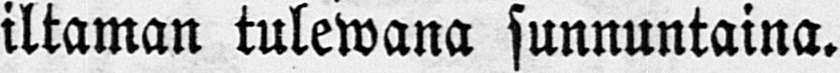iltaman tulewana sunnuntaina.
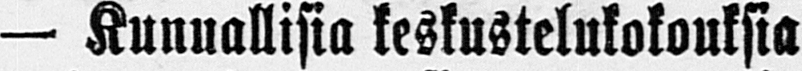— Kunnallisia keskustelukokouksia
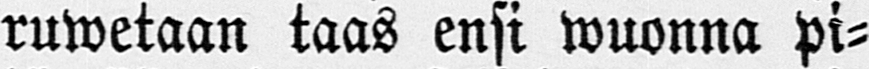ruwetaan taas ensi wuonna pi-
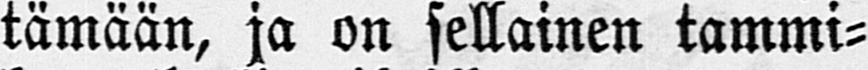tämään, ja on sellainen tammi-
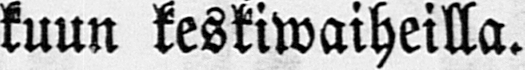kuun keskiwaiheilla.
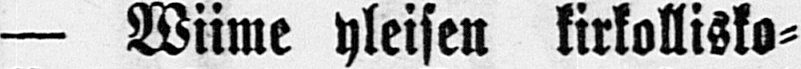— Wiime yleisen kirkollisko-
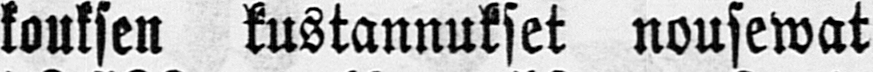kouksen kustannukset nousewat
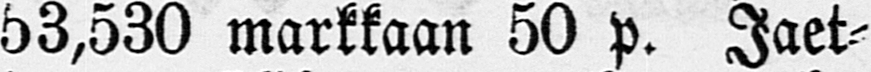53,530 markkaan 50 p. Jaet-
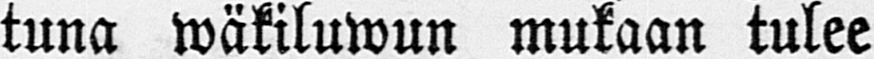tuna wäkiluwun mukaan tulee
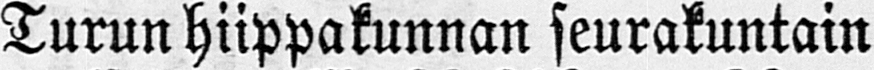Turun hiippakunnan seurakuntain
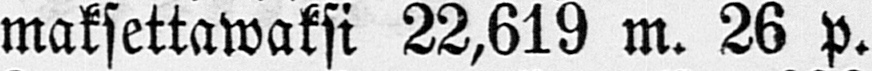maksettawaksi 22,619 m. 26 p.
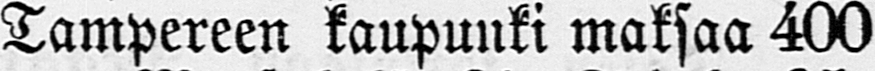Tampereen kaupunki maksaa 400
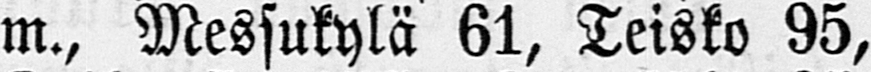m., Messukylä 61, Teisko 95,
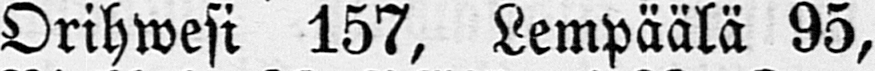Orihwesi 157, Lempäälä 95,
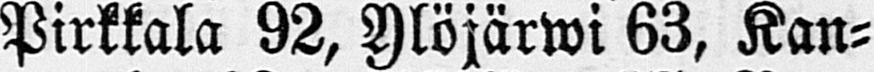Pirkkala 92, Ylöjärwi 63, Kan-
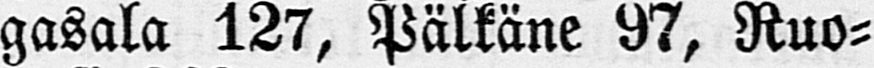gasala 127, Pälkäne 97, Ruo-
